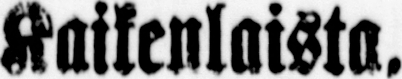Kaikenlaista.
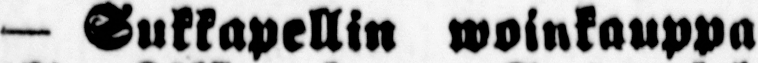— Sukkapellin woinkauppa
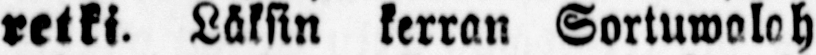retki. Läksin kerran Sortuwalah
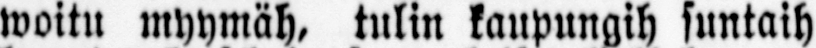woitu myymäh, tulin kaupungih suntaih
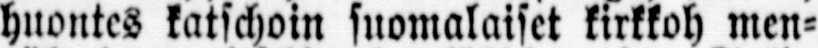huontes katschoin suomalaiset kirkkoh men-
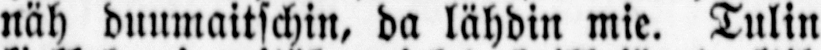näh duumaitschin, da lähdin mie. Tulin
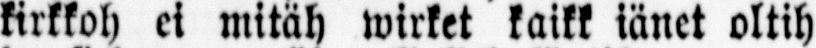kirkkoh ei mitäh wirket kaikk iänet oltih
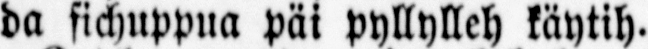da sichuppua päi pyllylleh käytih.
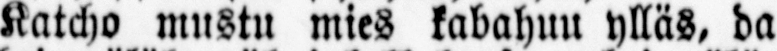Katcho mustu mies kabahuu ylläs, da
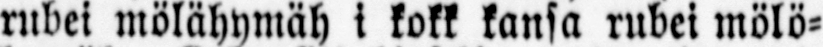rubei mölähymäh i kokk kansa rubei mölö-
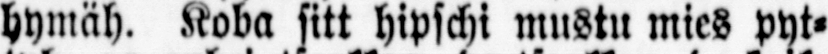hymäh. Koba sitt hipschi mustu mies pyt-
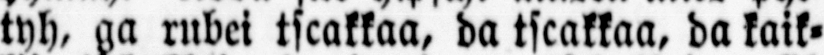tyh, ga rubei tscakkaa, da tscakkaa, da kaik-
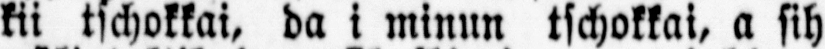kii tschokkai, da i minun tschokkai, a sih
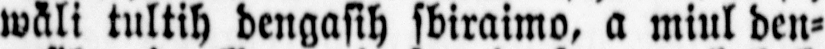wäli tultih dengasih sbiraimo, a miul den-
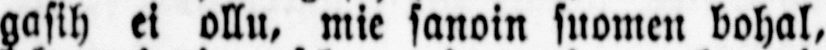gasih ei ollu, mie sanoin suomen bohal,
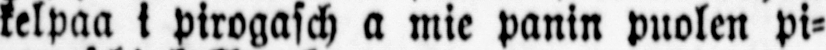kelpaa i pirogasch a mie panin puolen pi-
